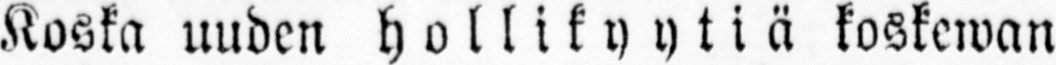Koska uuden hollik yytiä koskewan
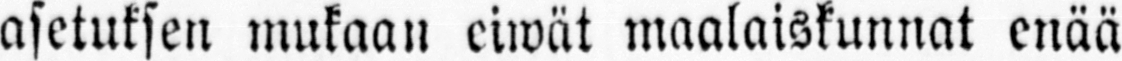asetuksen mukaan eiwät maalaiskunnat enää
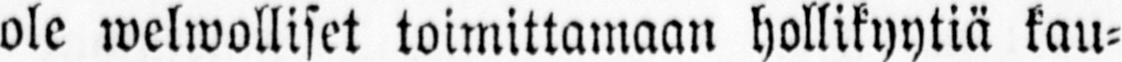ole welwolliset toimittamaan hollikyytiä kau-
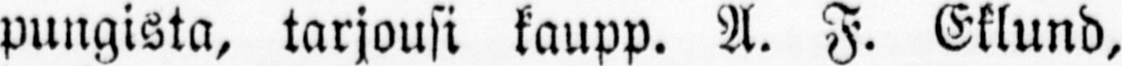pungista, tarjousi kaupp. A. F. Eklund,
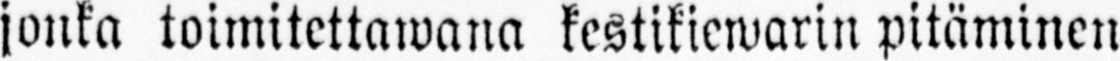jonka toimitettawana kestikiewarin pitäminen
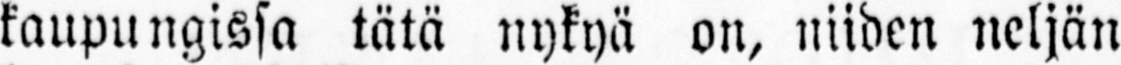kaupungissa tätä nykyä on, niiden neljän
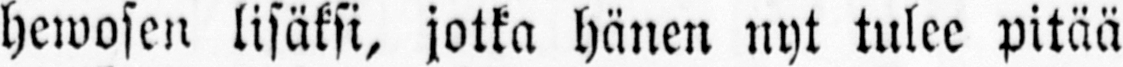hewosen lisäksi, jotka hänen nyt tulee pitää
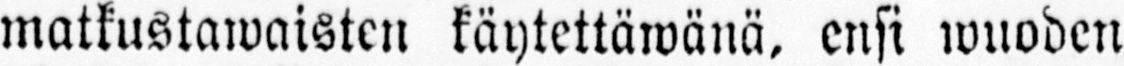matkustawaisten käytettäwänä, ensi wuoden
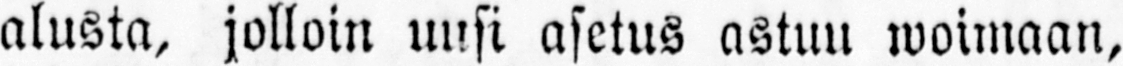alusta, jolloin uusi asetus astuu woimaan,
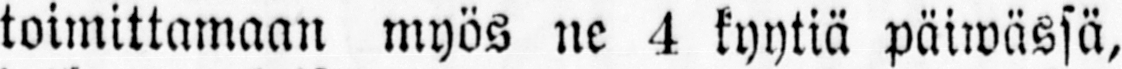toimittamaan myös ne 4 kyytiä päiwässä,
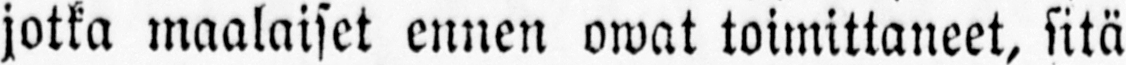jotka maalaiset ennen owat toimittaneet, sitä
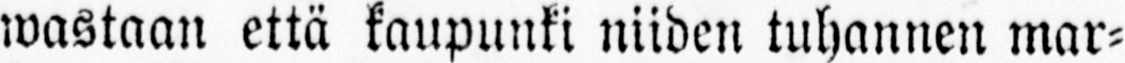wastaan että kaupunki niiden tuhannen mar-
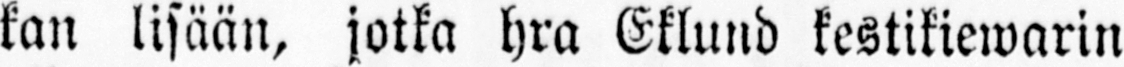kan lisään, jotka hra Eklund kestikiewarin
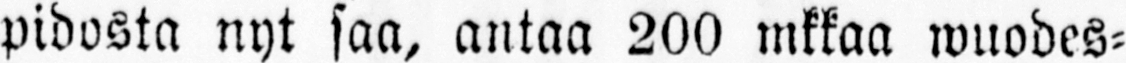pidosta nyt saa, antaa 200 mkkaa wuodes-
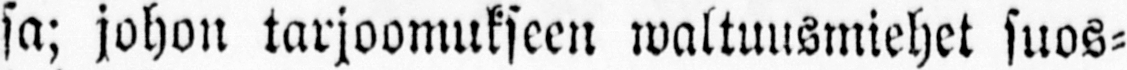sa; johon tarjoomukseen waltuusmiehet suos-
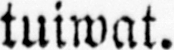tuiwat.
